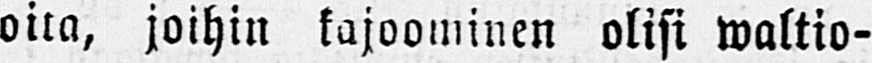oita, joihin kajoominen olisi waltio-
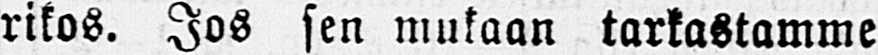rikos. Jos sen mukaan tarkastamme
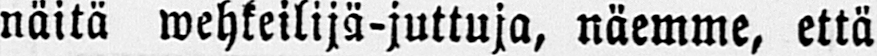näitä wehkeilijä-juttuja, näemme, että
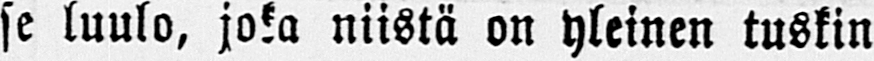se luulo, joka niistä on yleinen tuskin
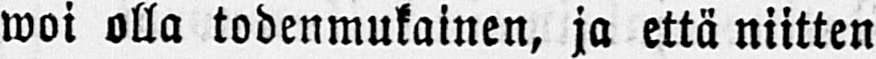woi olla todenmukainen, ja että niitten
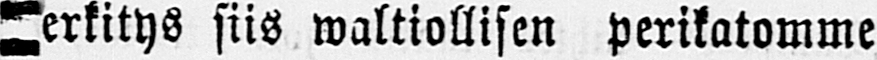erkitys siis waltiollisen perikatomme
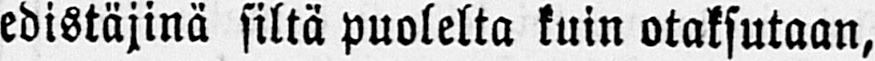edistäjinä siltä puolelta kuin otaksutaan,
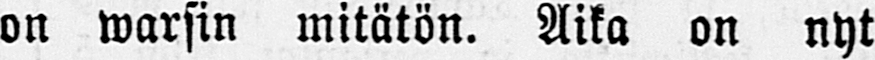on warsin mitätön. Aika on nyt
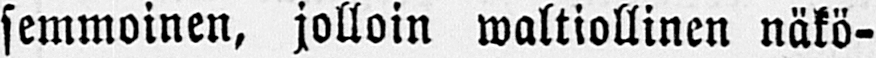semmoinen, jolloin waltiollinen näkö-
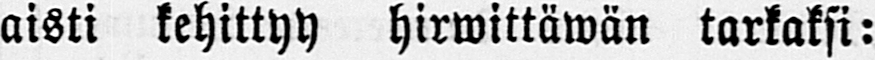aisti kehittyy hirwittäwän tarkaksi:
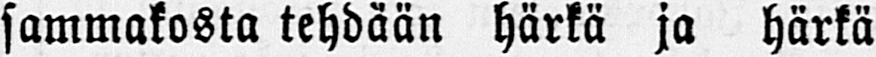sammakosta tehdään härkä ja härkä
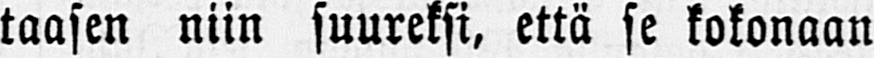taasen niin suureksi, että se kokonaan
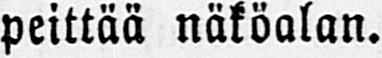peittää näköalan.
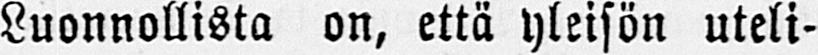Luonnollista on, että yleisön uteli-
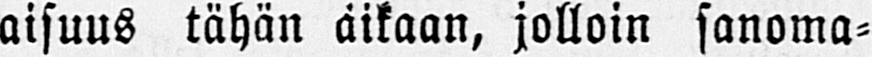aisuus tähän aikaan, jolloin sanoma-
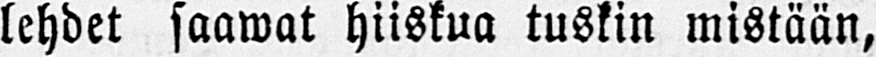lehdet saawat hiiskua tuskin mistään,
